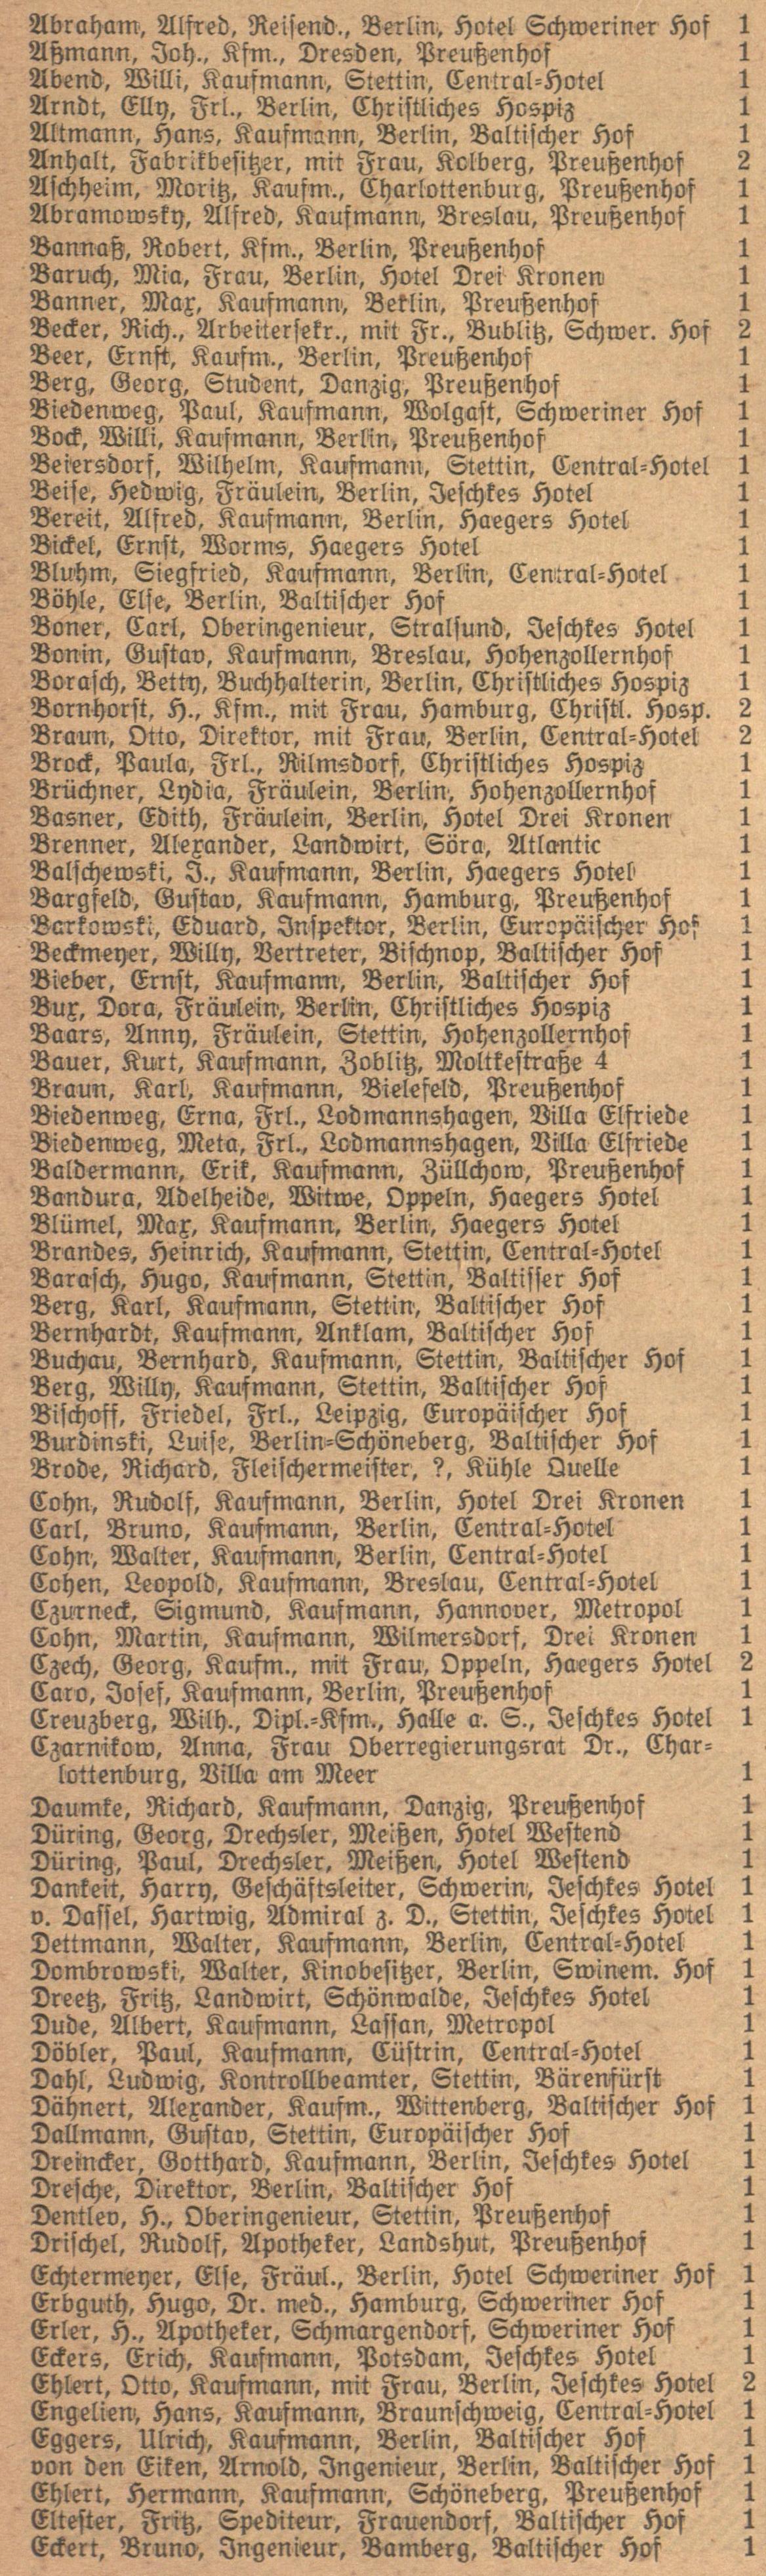Abraham, Alfred, Reisend., Berlin, Hotel Schweriner Hof | 1
Aßmann, Joh., Kfm., Dresden, Preußenhof | 1
Abend, Willi, Kaufmann, Stettin, Central=Hotel | 1
Arndt, Elly, Frl., Berlin, Christlichers Hospiz | 1
Altmann, Hans, Kaufmann, Berlin, Baltischer Hof | 1
Anhalt, Fabrikbesitzer, mit Frau, Kolberg, Preußenhof | 2
Aschheim, Moritz, Kaufm., Charlottenburg, Preußenhof | 1
Abramowsky, Alfred, Kaufmann, Breslau, Preußenhof | 1
Bannaß, Robert, Kfm., Berlin, Preußenhof | 1
Baruch, Mia, Frau, Berlin, Hotel Drei Kronen | 1
Banner, Max, Kaufmann, Berlin, Preußenhof | 1
Becker, Rich., Arbeitersekr., mit Fr., Bublitz, Schwer. Hof | 2
Beer, Ernst, Kaufm., Berlin, Preußenhof | 1
Berg, Georg, Student, Danzig, Preußenhof | 1
Biedenweg, Paul, Kaufmann, Wolgast, Schweriner Hof | 1
Bock, Willi, Kaufmann, Berlin, Preußenhof | 1
Beiersdorf, Wilhelm, Kaufmann, Stettin, Central=Hotel | 1
Beise, Hedwig, Fräulein, Berlin, Jeschkes Hotel | 1
Bereit, Alfred, Kaufmann, Berlin, Haegers Hotel | 1
Bickel, Ernst, Worms, Haegers Hotel | 1
Bluhm, Siegfried, Kaufmann, Berlin, Central=Hotel | 1
Böhle, Else, Berlin, Baltischer Hof | 1
Boner, Carl, Oberingenieur, Stralsund, Jeschkes Hotel | 1
Bonin, Gustav, Kaufmann, Breslau, Hohenzollernhof | 1
Borasch, Betty, Buchhalterin, Berlin, Christliches Hospiz | 1
Bornhorst, H., Kfm., mit Frau, Hamburg, Christrl. Hosp. | 2
Braun, Otto, Direktor, mit Frau, Berlin, Central=Hotel | 2
Brock, Paula, Frl., Rilmsdorf, Christliches Hospiz | 1
Brüchner, Lydia, Fräulein, Berlin, Hohenzollernhof | 1
Basner, Edith, Fräulein, Berlin, Hotel Drei Kronen | 1
Brenner, Alexander, Landwirt, Söra, Atlantic | 1
Balschewski, I., Kaufmann, Berlin, Haegers Hotel | 1
Bargfeld, Gustav, Kaufmann, Hamburg, Preußenhof | 1
Barkowski, Eduard, Inspektor, Berlin, Europäischer Hof | 1
Beckmeyer, Willy, Vertreter, Bischnop, Baltischer Hof | 1
Bieber, Ernst, Kaufmann, Berlin, Baltischer Hof | 1
Bux, Dora, Fräulein, Berlin, Christliches Hospiz | 1
Baars, Anny, Fräulein, Stettin, Hohenzollernhof | 1
Bauer, Kurt, Kaufmann, Zoblitz, Moltkestraße 4 | 1
Braun, Karl, Kaufmann, Bielefeld, Preußenhof | 1
Biedenweg, Erna, Frl., Lodmannshagen, Villa Elfriede | 1
Biedenweg, Meta, Frl., Lodmannshagen, Villa Elfriede | 1
Baldermann, Erik, Kaufmann, Züllchow, Preußenhof | 1
Bandura, Adelheide, Witwe, Oppeln, Haegers Hotel | 1
Blümel, Max, Kaufmann, Berlin, Haegers Hotel | 1
Brandes, Heinrich, Kaufmann, Stettin, Central=Hotel | 1
Barasch, Hugo, Kaufmann, Stettin, Baltisser Hof | 1
Berg, Karl, Kaufmann, Stettin, Baltischer Hof | 1
Bernhardt, Kaufmann, Anklam, Baltischer Hof | 1
Buchau, Bernhard, Kaufmann, Stettin, Baltischer Hof | 1
Berg, Willy, Kaufmann, Stettin, Baltischer Hof | 1
Bischoff, Friedel, Frl., Leipzig, Europäischer Hof | 1
Burdinski, Luise, Berlin=Schöneberg, Baltischer Hof | 1
Brode, Richard, Fleischermeister, ?, Kühle Quelle | 1
Cohn, Rudolf, Kaufmann, Berlin, Hotel Drei Kronen | 1
Carl, Bruno, Kaufmann, Berlin, Central=Hotel | 1
Cohn, Walter, Kaufmann, Berlin, Central=Hotel | 1
Cohen, Leopold, Kaufmann, Breslau, Central=Hotel | 1
Czurneck, Sigmund, Kaufmann, Hannover, Metropol | 1
Cohn, Martin, Kaufmann, Wilmersdorf, Drei Kronen | 1
Czech, Georg, Kaufm., mit Frau, Oppeln, Haegers Hotel | 2
Caro, Josef, Kaufmann, Berlin, Preußenhof | 1
Creuzberg, Wilh., Dipl.=Kfm., Halle a. S., Jeschkes Hotel | 1
Czarnikow, Anna, Frau Oberregierungsrat Dr., Char=
lottenburg, Villa am Meer | 1
Daumke, Richard, Kaufmann, Danzig, Preußenhof | 1
Düring, Georg, Drechsler, Meißen, Hotel Westend | 1
Düring, Paul, Drechsler, Meißen, Hotel Westend | 1
Dankeit, Harry, Geschäftsleiter, Schwerin, Jeschkes Hotel | 1
v. Dassel, Hartwig, Admiral z. D., Stettin, Jeschkes Hotel | 1
Dettmann, Walter, Kaufmann, Berlin, Central=Hotel | 1
Dombrowski, Walter, Kinobesitzer, Berlin, Swinem. Hof | 1
Dreetz, Fritz, Landwirt, Schönwalde, Jeschkes Hotel | 1
Dude, Albert, Kaufmann, Lassan, Metropol | 1
Döbler, Paul, Kaufmann, Cüstrin, Central=Hotel | 1
Dahl, Ludwig, Kontrollbeamter, Stettin, Bärenfürst | 1
Dähnert, Alexander, Kaufm., Wittenberg, Baltischer Hof | 1
Dallmann, Gustav, Stettin, Europäischer Hof | 1
Dreincker, Gotthard, Kaufmann, Berlin, Jeschkes Hotel | 1
Dresche, Direktor, Berlin, Baltischer Hof | 1
Dentlev, H., Oberingenieur, Stettin, Preußenhof | 1
Drischel, Rudolf, Apotheker, Landshut, Preußenhof | 1
Echtermeyer, Else, Fräul., Berlin, Hotel Schweriner Hof | 1
Erbguth, Hugo, Dr. med., Hamburg, Schweriner Hof | 1
Erler, H., Apotheker, Schmargendorf, Schweriner Hof | 1
Eckers, Erich, Kaufmann, Potsdam, Jeschkes Hotel | 1
Ehlert, Otto, Kaufmann, mit Frau, Berlin, Jeschkes Hotel | 2
Engelien, Hans, Kaufmann, Braunschweig, Central=Hotel | 1
Eggers, Ulrich, Kaufmann, Berlin, Baltischer Hof | 1
von den Eiken, Arnold, Ingenieur, Berlin, Baltischer Hof | 1
Ehlert, Hermann, Kaufmann, Schöneberg, Preußenhof | 1
Eltester, Fritz, Spediteur, Frauendorf, Baltischer Hof | 1
Eckert, Bruno, Ingenieur, Bamberg, Baltischer Hof | 1
